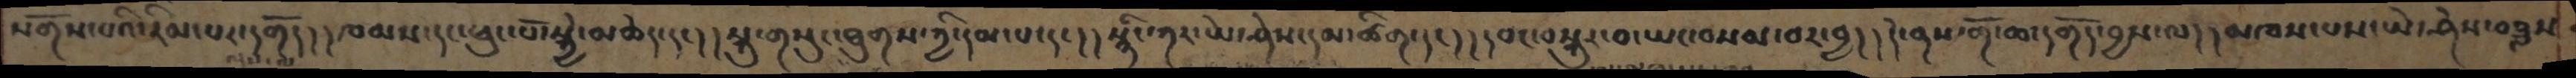སོགས་པའི་རིམ་པར་དགོད། །ཁམས་དང་ཕུང་པོ་སྐྱེ་མཆེད་དང། །སྐུ་གསུང་ཐུགས་ཀྱི་དམ་པ་དང། །སྙིང་ཀར་ཡེ་ཤེས་དམ་ཚིག་དང། །དབང་བསྐུར་བ་ཡང་བསམ་བར་བྱ། །དེ་ནས་གོ་ཆ་དགོད་བྱས་ལ། །མཁས་པས་ཡེ་ཤེས་བཟླས
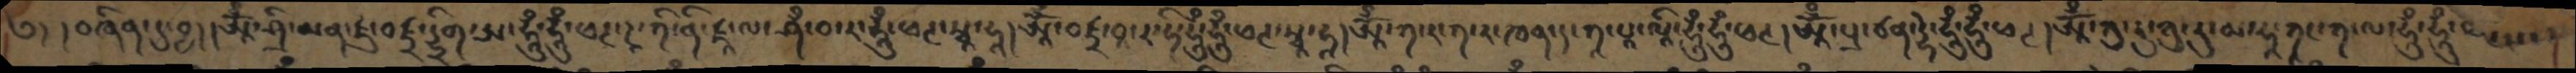༄། །བཞིན་དུ་བྱ། །ཨཱོྃ་ཤྲི་མན་ཛུ་བཛྲ་ཧྲིག་ཨ་ཧཱུྃ་ཧཱུྃ་ཕཊ་ཌཱ་ཀི་ནི་ཛཱ་ལ་ཤྃ་བ་ར་ཧཱུྃ་ཕཊ་སྭཱ་ཧཱ། ཨཱོྃ་བཛྲ་བཱ་ར་ཧི་ཧཱུྃ་ཧཱུྃ་ཕཊ་སྭཱ་ཧཱ། ཨཱོྃ་ཀ་ར་ཀ་ར་ཁན་ད་ཀཱ་པཱ་ལཱི་ཧཱུྃ་ཧཱུྃ་ཕཊ། ཨཱོྃ་པྲ་ཙན་དྷེ་ཧཱུྃ་ཧཱུྃ་ཕཊ། ཨཱོྃ་ཀུ་རུ་ཀུ་རུ་མ་ཧཱ་ཀ་ལ་ཧཱུྃ་ཧཱུྃ་ཕཊ་
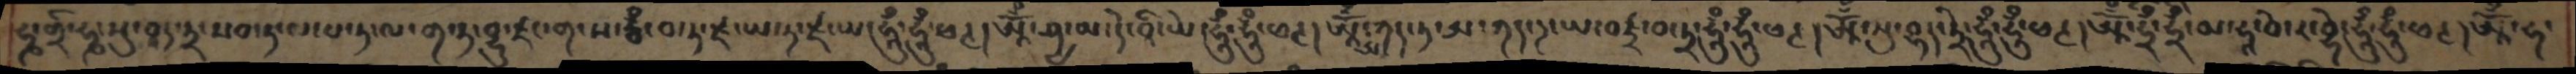ཧྞ་ཀྲི་ཧྞ་སུ་ཤད་ཏྲ་སབ་ཏ་ལ་པ་ཏ་ལ་ག་ཏ་བྷུ་ཛང་ག་ས་རྦྃ་བ་ཏ་ཛ་ཡ་ཏ་ཛ་ཡ་ཧཱུྃ་ཧཱུྃ་ཕཊ། ཨཱོྃ་ཤྱ་མ་དེ་བཱི་ཡེ་ཧ་ཌྷུྃ་ཧཱུྃ་ཕཊ། ཨཱོྃ་ཨ་ཀར་ཏ་ཨ་ཀར་ཌ་ཡ་བཛྲ་བ་ཏྲ་ཧཱུྃ་ཧཱུཾ་ཕཊ། ཨཱོྃ་སུ་བྷད་ཏྲེ་ཧཱུཾ་ཧཱུཾ་ཕཊ། ཨཱོྃ་ཧྲྃ་ཧྲྃ་མ་ཧཱ་བེ་ར་བྷེ་ཧཱུྃ་ཧཱུྃ་ཕཊ། ཨཱོྃ་ཧ་
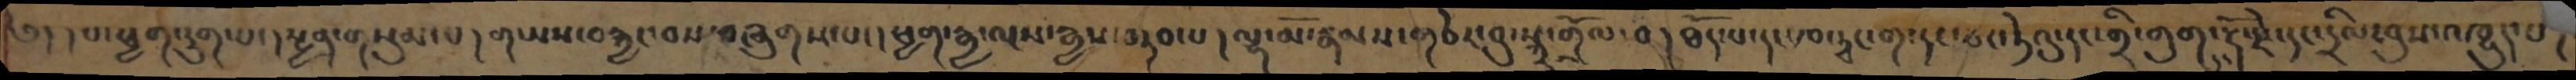༄། །པ་ཕྱག་དྲུག་པ་། སྤྱན་གསུམ་པ། གཡས་བརྐྱང་བས་བཞུགས་པ། ཕྱག་རྒྱ་ལས་རྒྱས་བཏབ་པ། ལྷ་མོ་རྣམས་གཅེར་བུ་སྐྲ་གྲོལ་བ། ཐོད་པ་དང་ཁ་ཊྭང་ག་དང་ཅང་ཏེའུ་དང་གྲི་གུག་དང་རྡོ་རྗེ་དང་དྲིལ་བུས་འཁྱུད་པ།
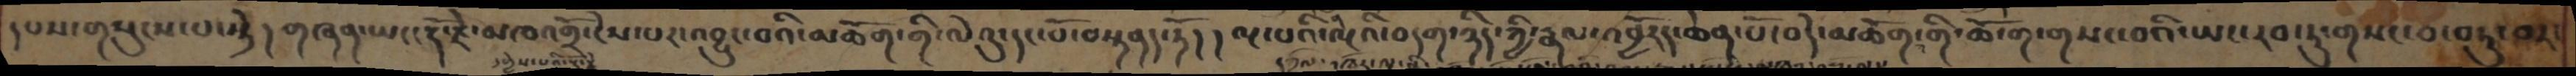དཔས་གསུངས་པ་སྟེ། གཞན་ཡང་རྡོ་རྗེ་མཁའགྲོ་ངེས་པར་འབྱུང་བའི་མཆོག་གི་ལེའུ་དང་པོ་བསྟནད་ཏོ། །ལྔ་པའི་ལྔའི་བདག་ཉིད་ཀྱི་རྣལ་འབྱོརད་ཆེན་པོ་བདེ་མཆོག་གི་ཆོ་ག་གསང་བའི་ཡང་རབ་ཏུ་གསང་བ་བཏུ་བར་
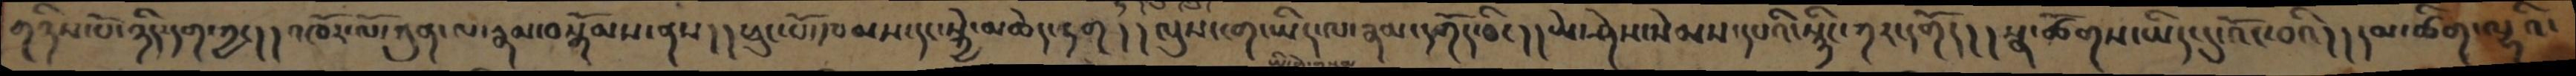གཉིས་པོ་ཉིད་དག་ཀྱང། །འཁོར་ལོ་ཀུན་ལ་རྣམ་བསྒོམས་ནས། །ཕུང་པོ་ཁམས་དང་སྐྱེ་མཆེད་དག། །ལུས་ངག་ཡིད་ལ་རྣམ་དགོད་ཅིང། །ཡེ་ཤེས་སེམས་དཔའི་སྙིང་ཀར་དགོད། །སྣ་ཚོགས་ཡིད་དུ་འོང་བའི། །དམ་ཚིག་ལྷའི་
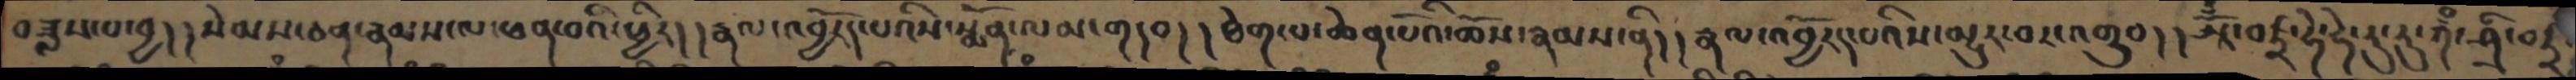བཟླས་པ་བྱ། །སེམས་ཅན་རྣམས་ལ་ཕན་བའི་ཕྱིར། །རྣལ་འབྱོརད་པའིས་སྨོན་ལམ་གདབ། །ཐེག་པ་ཆེན་པོའི་ཆོས་རྣམས་ནི། །རྣལ་འབྱོརད་པའིས་མྱུར་བར་འགྲུབ། །ཨཱོྃ་བཛྲ་ཧེ་ཧེ་རུ་རུ་ཀྃ་ཤྲི་བཛྲ
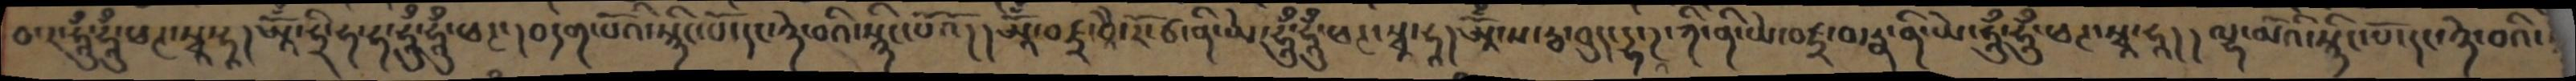བ་ར་ཧཱུྃ་ཧཱུྃ་ཕཊ་སྭཱ་ཧཱ། ཨཱོྃ་ཧྲི་ཧ་ཧ་ཧཱུྃ་ཧཱུྃ་ཕཊ་། བདག་པོའི་སྙིང་པོ་དང་ཉེ་བའི་སྙིང་པོའོ། །ཨཱོྃ་བཛྲ་བཱཻ་རོ་ཙ་ནི་ཡེ་ཧཱུྃ་ཧཱུྃ་ཕཊ་སྭཱ་ཧཱ། ཨཱོྃ་ས་རྦ་བུད་དྷ་ཌཱ་ཀི་ནི་ཡེ་བཛྲ་བ་རྣ་ནི་ཡེ་ཧཱུྃ་ཧཱུྃ་ཕཊ་སྭཱ་ཧཱ།། ལྷ་མོའི་སྙིང་པོ་དང་ཉེ་བའི་
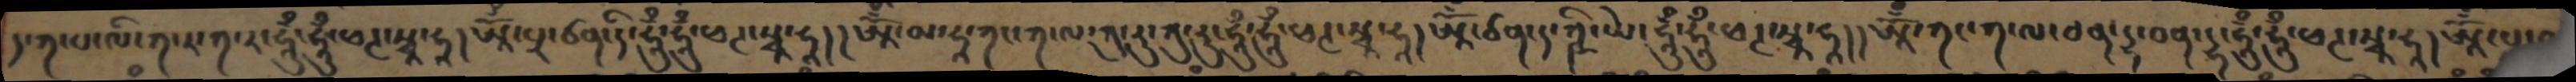ད་ཀ་པ་ལི་ཀ་ར་ཀ་ར་ཧཱུྃ་ཧཱུྃ་ཕཊ་སྭཱ་ཧཱ། ཨཱོྃ་པྲ་ཙན་དི་ཧཱུྃ་ཧཱུྃ་ཕཊ་སྭཱ་ཧཱ། །ཨཱོྃ་མ་ཧཱ་ཀང་ཀ་ལ་ཀུ་རུ་ཀུ་རུ་ཧཱུྃ་ཧཱུྃ་ཕཊ་སྭཱ་ཧཱ། ཨཱོྃ་ཙན་ད་ཀྵི་ཡེ་ཧཱུྃ་ཧཱུྃ་ཕཊ་སྭཱ་ཧཱ། །ཨཱོྃ་ཀང་ཀ་ལ་བན་དྷ་བན་དྷ་ཧཱུྃ་ཧཱུྃ་ཕཊ་སྭཱ་ཧཱ། ཨཱོྃ་པྲ་
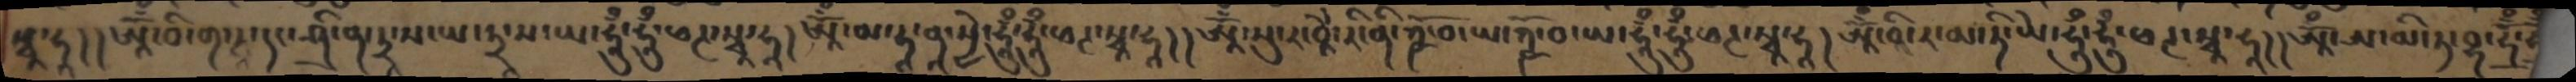སྭཱ་ཧཱ། །ཨཱོྃ་བི་ག་དྷ་དང་ཤྲི་ན་ཏྲ་ས་ཡ་ཏྲ་ས་ཡ་ཧཱུྃ་ཧཱུྃ་ཕཊ་སྭཱ་ཧཱ། ཨཱོྃ་མ་ཧཱ་ནཱ་སྱེ་ཧཱུྃ་ཧཱུྃ་ཕཊ་སྭཱ་ཧཱ། །ཨཱོྃ་སུ་ར་བཱཻ་རི་ནི་ཀྵོ་བ་ཡ་ཀྵོ་བ་ཡ་ཧཱུྃ་ཧཱུྃ་ཕཊ་སྭཱ་ཧཱ། ཨཱོྃ་བཱི་ར་མ་ཏི་ཡེ་ཧཱུྃ་ཧཱུྃ་ཕཊ་སྭཱ་ཧཱ། །ཨཱོྃ་ཨ་མི་ཏ་བྷ་ཧྃ
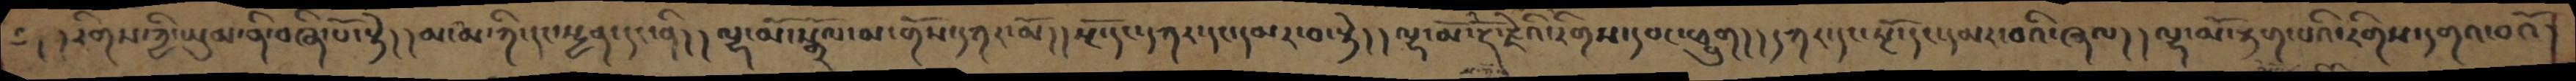༄། །རིགས་ཀྱི་ཡུམ་ནི་བཞི་པོ་སྟེ། །མ་མ་ཀི་དང་སྤྱན་དང་ནི། །ལྷ་མོ་སྒྲོལ་མ་གོས་དཀར་མོ། །སྔོ་དང་དཀར་དང་དམར་བ་སྟེ། །ལྷ་མོ་རྡོ་རྗེ་རིགས་དབང་ཕྱུག། །དཀར་དང་སྔོ་དང་དམར་བའི་ཞལ། །ལྷ་མོ་རྟག་པའི་རིགས་དགའ་བའོ།
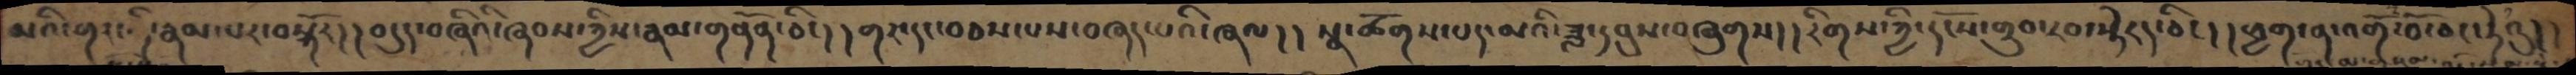མའི་གར་ནི་རྣམ་པར་བསྐོར། །བདུད་བཞིའི་ཞབས་ཀྱིས་རྣམ་གནོན་ཅིང། །གར་དང་བཅས་པས་བཞད་པའི་ཞལ། །སྣ་ཚོགས་པད་མའི་ཟླ་དབུས་བཞུགས། །རིགས་ཀྱི་དངོས་གྲུབ་རབ་སྟེར་ཅིང། །ཕྱག་ན་འགོ་བོ་ཅང་ཏེའུ།།
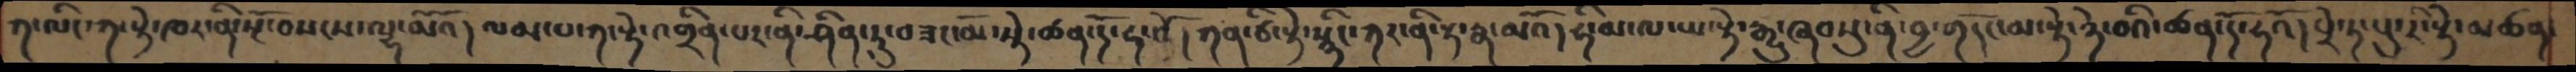ཀ་ལིང་ཀ་སྟེ་ཁར་ནི་སྔོ་བསངས་ལྷ་མོའོ།ལམ་པ་ཀ་སྟེ་་འགྲིན་པར་ནི་ཤིན་ཏུ་བཟང་མོ་སྟེ་ཚན་དོ་ཧ་འོ། ཀན་ཙི་སྟེ་སྙིང་ཀར་ནི་རྟ་རྣ་མའོ། ཧི་མ་ལ་ཡ་སྟེ་རྒྱུ་ཞབསུ་ནི་བྱ་གདོང་མ་སྟེ་ཉེ་བའི་ཚན་དོ་ཧའོ། པྲེ་ཏ་པུ་རི་སྟེ་མཚན
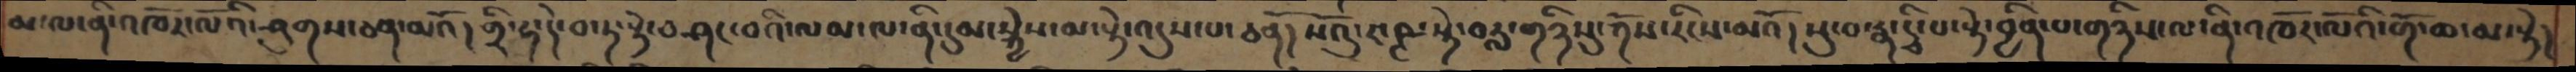མ་ལ་ནི་འཁོར་ལོའི་ཤུགས་ཅན་མའོ། གྲི་ཧ་དེ་བ་ཏ་སྟེ་བཤང་བའི་ལམ་ལ་ནི་དུམ་སྐྱེས་མ་སྟེ་འདུས་པ་ཅན། སོའུ་ར་ཥྚ་སྟེ་བརླ་གཉིསུ་ཀོས་རིངས་མའོ། སུ་བ་རྣ་དྭི་པ་སྟེ་བྱིན་པ་གཉིས་ལ་ནི་འཁོར་ལོའི་གོ་ཆ་མ་་སྟེ།
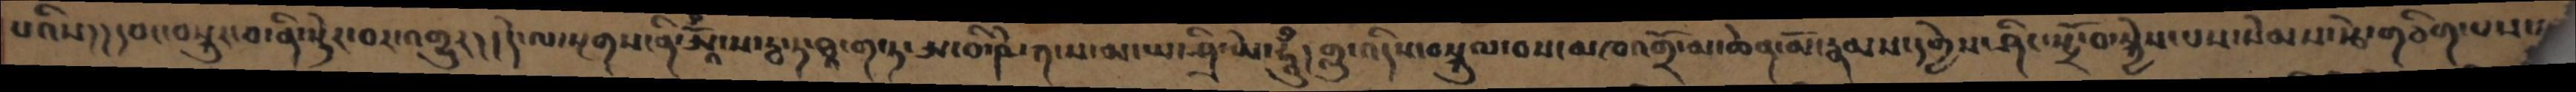པའིས།།དབང་བསྐུར་བ་ནི་སྟེར་བར་འགྱུར།།དེ་ལ་སྔགས་ནི་ཨཱོྃ་ས་རྦ་ཏ་ཐཱ་ག་ཏ་ཨ་བི་ཥི་ཀ་ས་མ་ཡ་ཤྲི་ཡེ་ཧཱུྃ།གླུ་འདིས་བསྐུལ་བས་མཁའགྲོ་མ་ཆེན་མོ་རྣམས་དགྱེས་ཤིང་སྤྲོ་བ་སྐྱེས་པས་སེམས་རྩེ་གཅིག་པས་
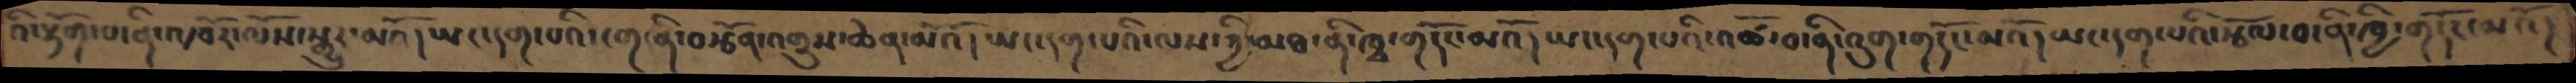འི་རྟོག་པ་ནི་འཁོར་ལོས་སྒྱུར་མའོ། ཡང་དག་པའི་ངག་ནི་བརྩོན་འགྲུས་ཆེན་མའོ། ཡང་དག་པའི་ལས་ཀྱི་མཐ་ནི་ཁྭ་གདོང་མའོ། ཡང་དག་པའི་འཚོ་བ་ནི་འུག་གདོང་མའོ། ཡང་དག་པའི་རྩོལ་བ་ནི་ཁྱི་གདོང་མའོ།
